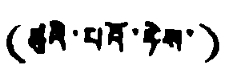(ཚུའི་པའོ་ཏེས་)
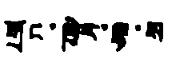གྲོང་ཁྱེར་ལྷ་ས
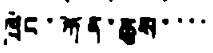ཁྲེང་ཀོན་ཆུས་་་་
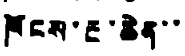ཁོངས་རྔ་ཆེན་་་་
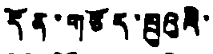དོན་གཅོད་ཁྲུའུའི་
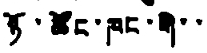ཉོ་ཚོང་ཁང་གི་་
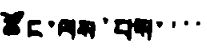ཚོང་ལས་པས་་་་
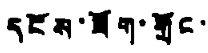དངོས་ཟོག་གྲོང་
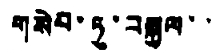གསེབ་ཏུ་བསྐྱལ་་
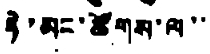ཏེ་མང་ཚོགས་ལ་་
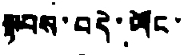སྟབས་བདེ་ཡོང་
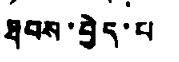ཐབས་བྱེད་པ།
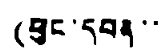(ཕུང་དབན་་་
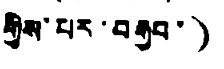གྱིས་པར་བརྒྱབ་)
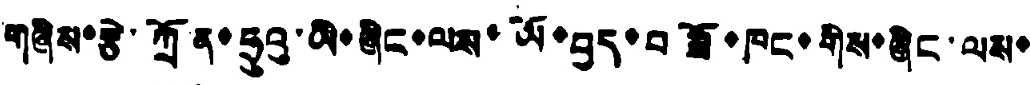གཞིས་རྩེ་ཀྲོན་ཧྲུའུ་ཡི་ཞིང་ལས་ཡོ་བྱད་བཟོ་ཁང་གིས་ཞིང་ལས་
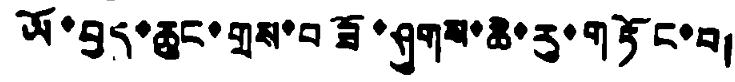ཡོ་བྱད་ཆུང་གྲས་བཟོ་ཤུགས་ཆེ་རུ་གཏོང་བ།
